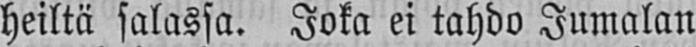heiltä salassa. Joka ei tahdo Jumalan
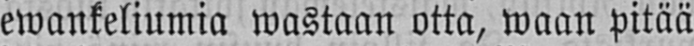ewankeliumia wastaan otta, waan pitää
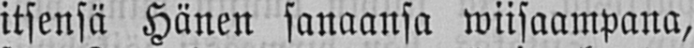itsensä Hänen sanaansa wiisaampana,
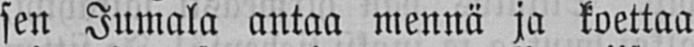sen Jumala antaa mennä ja koettaa
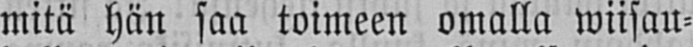mitä hän saa toimeen omalla wiisau-
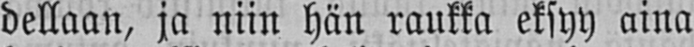dellaan, ja niin hän raukka eksyy aina
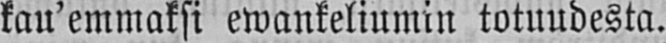kau'emmaksi ewankeliumin totuudesta.
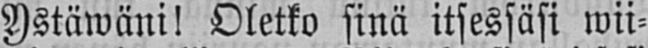Ystäwäni! Oletko sinä itsessäsi wii-
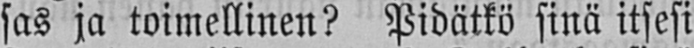sas ja toimellinen? Pidätkö sinä itsesi
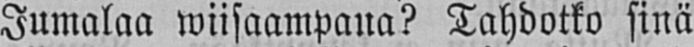Jumalaa wiisaampana? Tahdotko sinä
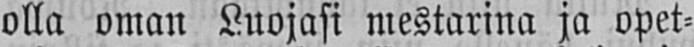olla oman Luojasi mestarina ja opet-
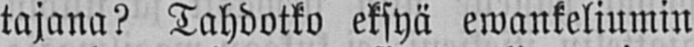tajana? Tahdotko eksyä ewankeliumin
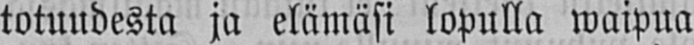totuudesta ja elämäsi lopulla waipua
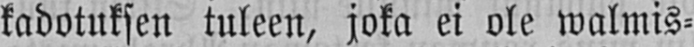kadotuksen tuleen, joka ei ole walmis-
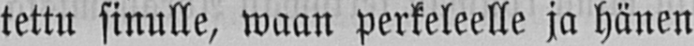tettu sinulle, waan perkeleelle ja hänen
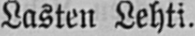Lasten Lehti.
